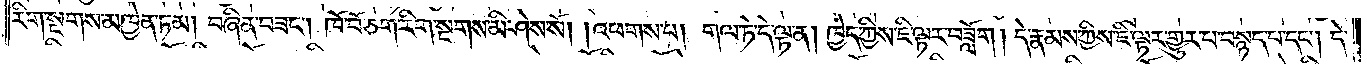རིག་སྔགས་མཁྱེན་ཏམ། བཞིན་བཟང༌། ཁོ་བོ་ཅག་རིག་སྔགས་མི་ཤེས་སོ། །འཕགས་པ། གལ་ཏེ་དེ་ལྟ་ན། ཁྱེད་ཀྱིས་ཇི་ལྟར་བཟློག། དེ་རྣམས་ཀྱིས་ཇི་ལྟར་གྱུར་པ་བསྙད་པ་དང༌། དེ་
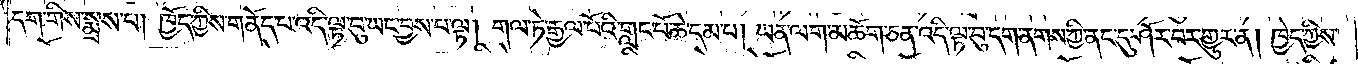དག་གིས་སྨྲས་པ། ཁྱོད་ཀྱིས་གནོད་པ་འདི་ལྟ་བུ་ཡང་བྱས་པ་ལྟ། གལ་ཏེ་རྒྱལ་པོའི་གླང་པོ་ཆེ་དམ་པ། ཡན་ལག་མཆོག་ཅན་འདི་ལྟ་བུ་དག་ནགས་ཀྱི་ནང་དུ་ཤོར་བར་གྱུར་ན། ཁྱེད་ཀྱིས་
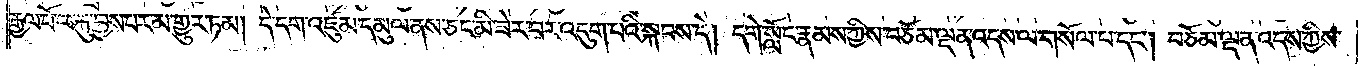རྒྱལ་པོ་ལ་རྐུ་བྱས་པར་མ་གྱུར་ཏམ། དེ་དག་འཛུམ་དམུལ་ནས་ཅང་མི་ཟེར་བར་འདུག་པའི་སྐབས་དེ། དགེ་སློང་རྣམས་ཀྱིས་བཅོམ་ལྡན་འདས་ལ་གསོལ་པ་དང༌། བཅོམ་ལྡན་འདས་ཀྱིས་
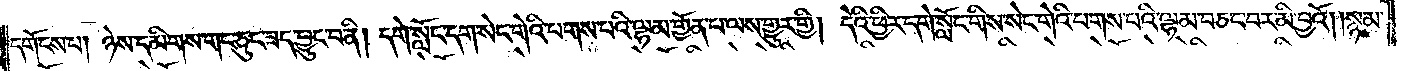དགོངས་པ། ཉེས་དམིགས་གང་ཅུང་ཟད་བྱུང་བ་ནི། དགེ་སློང་དག་སེང་གེའི་པགས་པའི་ལྷམ་གྱོན་པ་ལས་གྱུར་གྱི། དེའི་ཕྱིར་དགེ་སློང་གིས་སེང་གེའི་པགས་པའི་ལྷམ་བཅང་བར་མི་བྱའོ། །སྙམ་
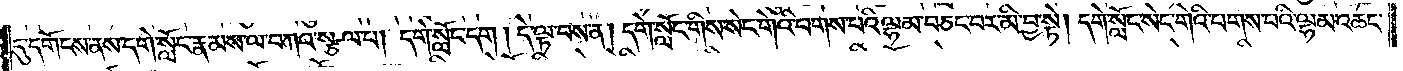དུ་དགོངས་ནས་དགེ་སློང་རྣམས་ལ་བཀའ་སྩལ་པ། དགེ་སློང་དག། དེ་ལྟ་བས་ན། དགེ་སློང་གིས་སེང་གེའི་པགས་པའི་ལྷམ་བཅང་བར་མི་བྱ་སྟེ། དགེ་སློང་སེང་གེའི་པགས་པའི་ལྷམ་འཆང་
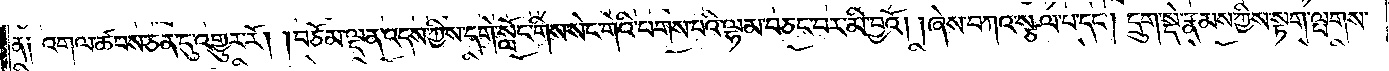ན༑ འགལ་ཚབས་ཅན་དུ་འགྱུར་རོ། །བཅོམ་ལྡན་འདས་ཀྱིས་དགེ་སློང་གིས་སེང་གེའི་པགས་པའི་ལྷམ་བཅང་བར་མི་བྱའོ། །ཞེས་བཀའ་སྩལ་པ་དང༌། དྲུག་སྡེ་རྣམས་ཀྱིས་སྟག་ལྤགས་
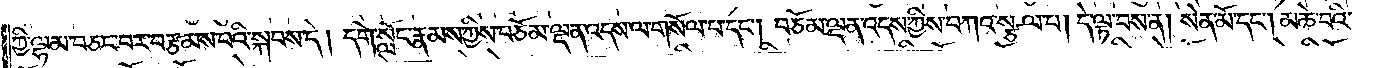ཀྱི་ལྷམ་བཅང་བར་བརྩམས་པའི་སྐབས་དེ། དགེ་སློང་རྣམས་ཀྱིས་བཅོམ་ལྡན་འདས་ལ་གསོལ་པ་དང༌། བཅོམ་ལྡན་འདས་ཀྱིས་བཀའ་སྩལ་པ། དེ་ལྟ་བས་ན། སེན་མོ་དང༌། མཆེ་བའི་
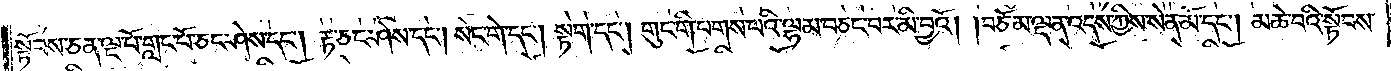སྟོབས་ཅན་ལྔ་པོ་གླང་པོ་ཅང་ཤེས་དང༌། རྟ་ཅང་ཤེས་དང༌། སེང་གེ་དང༌། སྟག་དང༌། གུང་གི་པགས་པའི་ལྷམ་བཅང་བར་མི་བྱའོ། །བཅོམ་ལྡན་འདས་ཀྱིས་སེན་མོ་དང༌། མཆེ་བའི་སྟོབས་
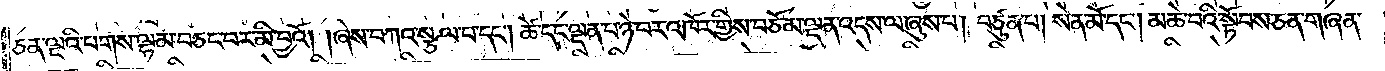ཅན་ལྔའི་པགས་ལྷམ་བཅང་བར་མི་བྱའོ། །ཞེས་བཀའ་སྩལ་པ་དང༌། ཚེ་དང་ལྡན་པ་ཉེ་བར་འཁོར་གྱིས་བཅོམ་ལྡན་འདས་ལ་ཞུས་པ། བཙུན་པ། སེན་མོ་དང༌། མཆེ་བའི་སྟོབས་ཅན་གཞན་
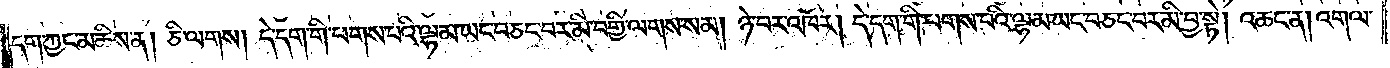དག་ཀྱང་མཆིས་ན། ཅི་ལགས། དེ་དག་གི་པགས་པའི་ལྷམ་ཡང་བཅང་བར་མི་བགྱི་ལགས་སམ། ཉེ་བར་འཁོར། དེ་དག་གི་པགས་པའི་ལྷམ་ཡང་བཅང་བར་མི་བྱ་སྟེ། འཆང་ན། འགལ་
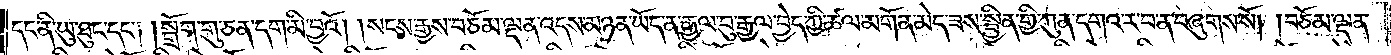དང་ནི་ཡུ་ཐུང་དང༌། །སྒྲོག་གུ་ཅན་དག་མི་བྱའོ། །སངས་རྒྱས་བཅོམ་ལྡན་འདས་མཉན་ཡོད་ན་རྒྱལ་བུ་རྒྱལ་བྱེད་ཀྱི་ཚལ་མགོན་མེད་ཟས་སྦྱིན་གྱི་ཀུན་དགའ་ར་བ་ན་བཞུགས་སོ། །བཅོམ་ལྡན་
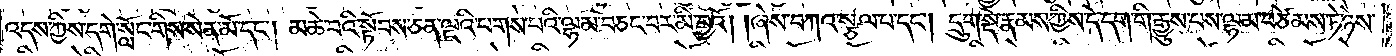འདས་ཀྱིས་དགེ་སློང་གིས་སེན་མོ་དང༌། མཆེ་བའི་སྟོབས་ཅན་ལྔའི་པགས་པའི་ལྷམ་བཅང་བར་མི་བྱའོ། །ཞེས་བཀའ་སྩལ་པ་དང༌། དྲུག་སྡེ་རྣམས་ཀྱིས་དེ་དག་གི་རྒྱུས་པས་ལྷམ་བཙེམས་ཏེ་ཉེས་
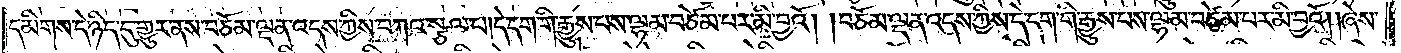དམིགས་དེ་ཉིད་དུ་གྱུར་ནས་བཅོམ་ལྡན་འདས་ཀྱིས་བཀའ་སྩལ་པ། དེ་དག་གི་རྒྱུས་པས་ལྷམ་བཙེམ་པར་མི་བྱའོ། །བཅོམ་ལྡན་འདས་ཀྱིས་དེ་དག་གི་རྒྱུས་པས་ལྷམ་བཙེམ་པར་མི་བྱའོ། །ཞེས་
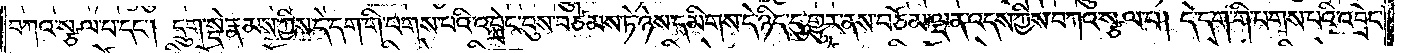བཀའ་སྩལ་པ་དང༌། དྲུག་སྡེ་རྣམས་ཀྱིས་དེ་དག་གི་པགས་པའི་འབྲེང་བུས་བཙམས་ཏེ་ཉེས་དམིགས་དེ་ཉིད་དུ་གྱུར་ནས་བཅོམ་ལྡན་འདས་ཀྱིས་བཀའ་སྩལ་པ། དེ་དག་གི་པགས་པའི་འབྲེང་
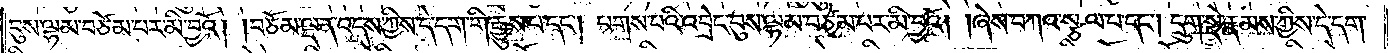བུས་ལྷམ་བཙེམ་པར་མི་བྱའོ། །བཅོམ་ལྡན་འདས་ཀྱིས་དེ་དག་གི་རྒྱུས་པ་དང༌། པགས་པའི་འབྲེང་བུས་ལྷམ་བཙེམ་པར་མི་བྱའོ། །ཞེས་བཀའ་སྩལ་པ་དང༌། དྲུག་སྡེ་རྣམས་ཀྱིས་དེ་དག་
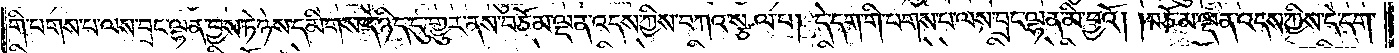གི་པགས་པ་ལས་བྲང་ལྷན་བྱས་ཏེ་ཉེས་དམིགས་དེ་ཉིད་དུ་གྱུར་ནས་བཅོམ་ལྡན་འདས་ཀྱིས་བཀའ་སྩལ་པ། དེ་དག་གི་པགས་པ་ལས་བྲང་ལྷན་མི་བྱའོ། །བཅོམ་ལྡན་འདས་ཀྱིས་དེ་དག་
